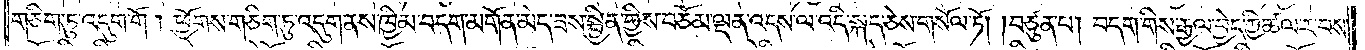གཅིག་ཏུ་འདུག་གོ། ཕྱོགས་གཅིག་ཏུ་འདུག་ནས་ཁྱིམ་བདག་མགོན་མེད་ཟས་སྦྱིན་གྱིས་བཅོམ་ལྡན་འདས་ལ་འདི་སྐད་ཅེས་གསོལ་ཏོ། །བཙུན་པ། བདག་གིས་རྒྱལ་བྱེད་ཀྱི་ཚལ་ར་བས་
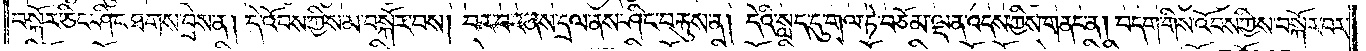བསྐོར་ཅིང་ཤིང་ཐགས་བྲེས་ན། དེ་འོབས་ཀྱིས་མ་བསྐོར་བས། བར་བར་ནས་དྲལ་ནས་ཤིང་བརྐུས་ན། དེའི་སླད་དུ་གལ་ཏེ་བཅོམ་ལྡན་འདས་ཀྱིས་གནང་ན། བདག་གིས་འོབས་ཀྱིས་བསྐོར་བར་
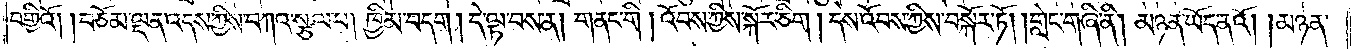བགྱིའོ། །བཅོམ་ལྡན་འདས་ཀྱིས་བཀའ་སྩལ་པ། ཁྱིམ་བདག། དེ་ལྟ་བས་ན། གནང་གི། འོབས་ཀྱིས་སྐོར་ཅིག། དེས་འོབས་ཀྱིས་བསྐོར་ཏོ། །གླེང་གཞི་ནི། མཉན་ཡོད་ནའོ། །མཉན་
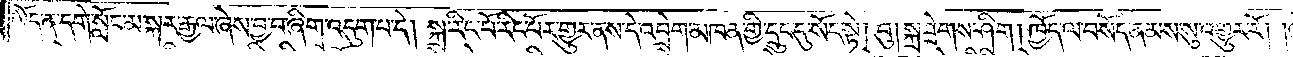ཡོད་ན་དགེ་སློང་མ་སྐར་རྒྱལ་ཞེས་བྱ་བ་ཞིག་འདུག་པ་དེ། སྐྲ་རིང་པོ་རིང་པོར་གྱུར་ནས་དེ་འབྲེག་མཁན་གྱི་དྲུང་དུ་སོང་སྟེ། བུ། སྐྲ་བྲེགས་ཤིག། ཁྱོད་ལ་བསོད་ནམས་སུ་འགྱུར་རོ། །ཞེས་བྱས་པ་
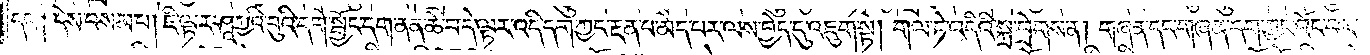དང༌། དེས་བསམ་པ། ཇི་ལྟར་ཤཱཀྱའི་བུའི་དགེ་སྦྱོང་དག་ནན་ཆེ་བ་དེ་ལྟར་འདི་དག་ཀྱང་རྔན་པ་མེད་པར་ལས་བྱེད་དུ་འཇུག་སྟེ། གལ་ཏེ་འདིའི་སྐྲ་བྲེགས་ན། གཞན་དང་གཞན་དག་ཀྱང་འོང་བར་
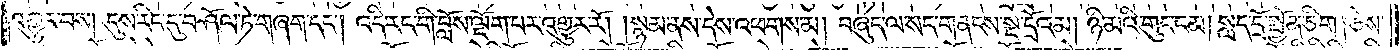འགྱུར་བས། དུས་རིང་དུ་བཤོལ་ཏེ་གཞག་དང༌། འདི་རང་གི་བློས་ལྡོག་པར་འགྱུར་རོ། །སྙམ་ནས་དེས་འཕགས་མ། བཞུད་ལ་སད་གནངས་སྔ་དྲོའམ། ཉི་མའི་གུང་ངམ། སླད་དྲོ་སྤྱོན་ཅིག །ཅེས་
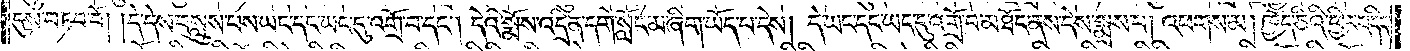དུས་བཏབ་བོ། །དེ་དེས་བསླུས་པས་ཡང་དང་ཡང་དུ་འགྲོ་བ་དང༌། དེའི་སྨོས་འདྲིན་དགེ་སློང་མ་ཞིག་ཡོད་པ་དེས། དེ་ཡང་དང་ཡང་དུ་འགྲོ་བ་མཐོང་ནས་དེས་སྨྲས་པ། འཕགས་མ། ཁྱོད་ཅིའི་ཕྱིར་འདིར་
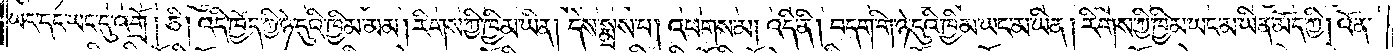ཡང་དང་ཡང་དུ་འགྲོ། ཅི། འདི་ཁྱོད་ཀྱི་ཉེ་དུའི་ཁྱིམ་མམ། རིགས་ཀྱི་ཁྱིམ་ཡིན། དེས་སྨྲས་པ། འཕགས་མ། འདི་ནི། བདག་གི་ཉེ་དུའི་ཁྱིམ་ཡང་མ་ཡིན། རིགས་ཀྱི་ཁྱིམ་ཡང་མ་ཡིན་མོད་ཀྱི། འོན་
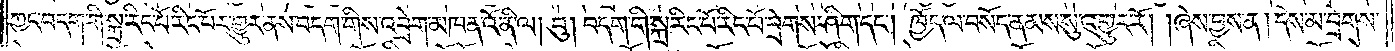ཀྱང་བདག་གི་སྐྲ་རིང་པོ་རིང་པོར་གྱུར་ནས་བདག་གིས་འབྲེག་མཁན་འོ་ནི་ལ། བུ། བདག་གི་སྐྲ་རིང་པོ་རིང་པོ་བྲེགས་ཤིག་དང༌། ཁྱོད་ལ་བསོད་ནམས་སུ་འགྱུར་རོ། །ཞེས་བྱས་ན། དེས་མ་བྲེགས་
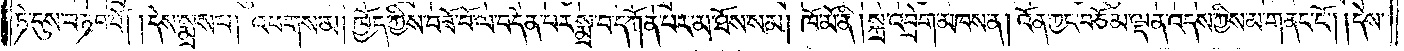ཏེ་དུས་བཏབ་བོ། །དེས་སྨྲས་པ། འཕགས་མ། ཁྱོད་ཀྱིས་བཟོ་བོ་ལ་བདེན་པར་སྨྲ་བ་དཀོན་པར་མ་ཐོས་སམ། ཁོ་མོ་ནི། སྐྲ་འབྲེག་མཁས་ན། འོན་ཀྱང་བཅོམ་ལྡན་འདས་ཀྱིས་མ་གནང་ངོ༌། །དེས་
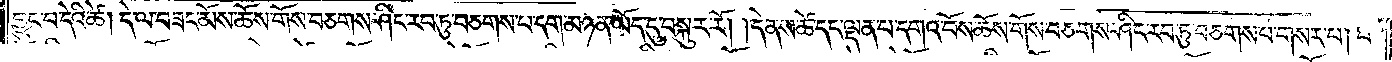བྱུང་བ་དེའི་ཚེ། དེ་ལ་བཟང་མོས་ཆོས་གོས་བཅགས་ཤིང་རབ་ཏུ་བཅགས་པ་དག་མཉན་ཡོད་དུ་བསྐུར་རོ། །དེ་ནས་ཚེ་དང་ལྡན་པ་དགའ་བོས་ཆོས་གོས་བཅགས་ཤིང་རབ་ཏུ་བཅགས་པ་གསར་པ། བ་
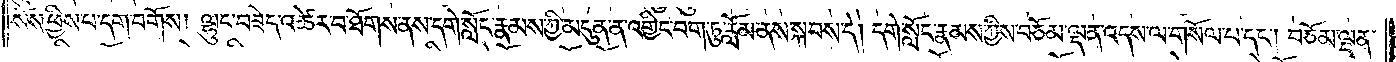སོས་ཕྱིས་པ་དག་བགོས། ལྷུང་བཟེད་འཚེར་བ་ཐོགས་ནས་དགེ་སློང་རྣམས་ཀྱི་མདུན་ན་འགྱིང་བག་ཏུ་རློམ་ནས་སྐབས་དེ། དགེ་སློང་རྣམས་ཀྱིས་བཅོམ་ལྡན་འདས་ལ་གསོལ་པ་དང༌། བཅོམ་ལྡན་
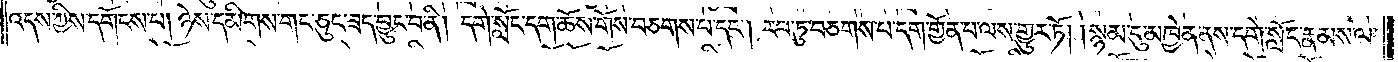འདས་ཀྱིས་དགོངས་པ། ཉེས་དམིགས་གང་ཅུང་ཟད་བྱུང་བ་ནི། དགེ་སློང་དག་ཆོས་གོས་བཅགས་པ་དང༌། རབ་ཏུ་བཅགས་པ་དག་གྱོན་པ་ལས་གྱུར་ཏོ། །སྙམ་དུ་མཁྱེན་ནས་དགེ་སློང་རྣམས་ལ་
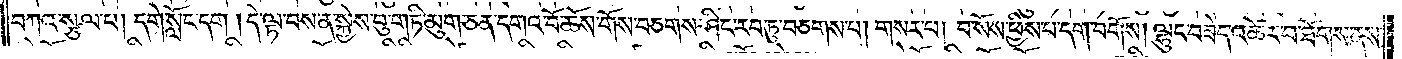བཀའ་སྩལ་པ། དགེ་སློང་དག། དེ་ལྟ་བས་ན་སྐྱེས་བུ་གཏི་མུག་ཅན་དགའ་བོ་ཆོས་གོས་བཅགས་ཤིང་རབ་ཏུ་བཅགས་པ། གསར་པ། བ་སོས་ཕྱིས་པ་དག་བགོས། ལྷུང་བཟེད་འཚེར་བ་ཐོགས་ནས་
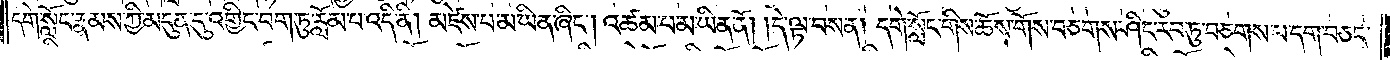དགེ་སློང་རྣམས་ཀྱི་མདུན་དུ་འགྱིང་བག་ཏུ་རློམ་པ་འདི་ནི། མཛེས་པ་མ་ཡིན་ཞིང༌། འཚམ་པ་མ་ཡིན་ནོ། །དེ་ལྟ་བས་ན། དགེ་སློང་གིས་ཆོས་གོས་བཅགས་ཤིང་རབ་ཏུ་བཅགས་པ་དག་བཅང་
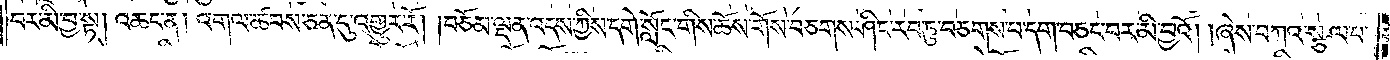བར་མི་བྱ་སྟེ། འཆང་ན། འགལ་ཚབས་ཅན་དུ་འགྱུར་རོ། །བཅོམ་ལྡན་འདས་ཀྱིས་དགེ་སློང་གིས་ཆོས་གོས་བཅགས་ཤིང་རབ་ཏུ་བཅགས་པ་དག་བཅང་བར་མི་བྱའོ། །ཞེས་བཀའ་སྩལ་པ་
